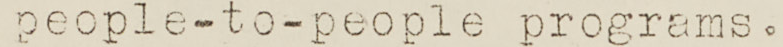people-to-people programs.
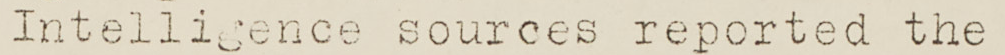Intelligence sources reported the
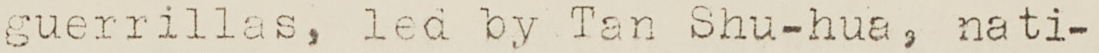guerrillas, led by Tan Shu-hua, nati-
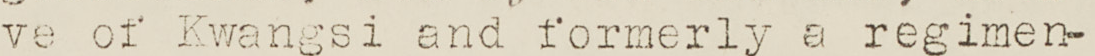ve of Kwangsi and formerly a regimen-
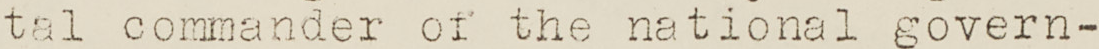tal commander of the national govern-
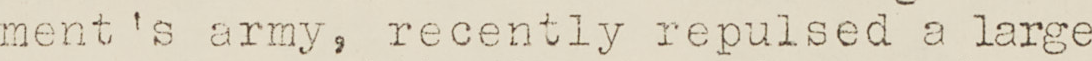ment's army, recently repulsed a large
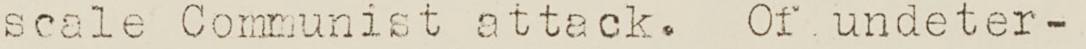scale Communist attack. Of undeter-
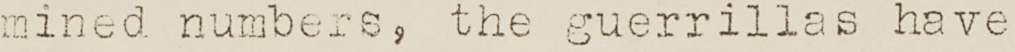mined numbers, the guerrels have
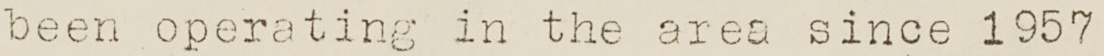been operating in the are since 1957
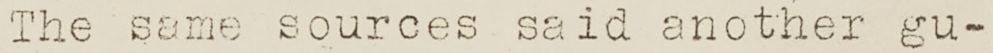The same sources said another gu-
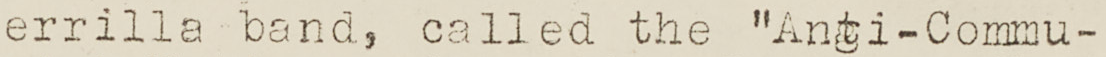errilla band, called the "Anti-Commu¬
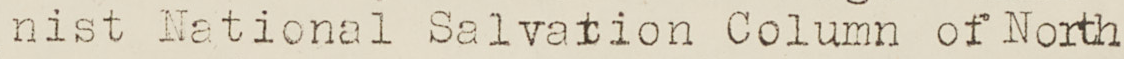nist National Salvation Column of North
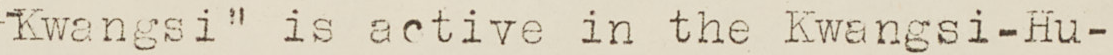Kwangsi" is active in the Kwangsi-Hu
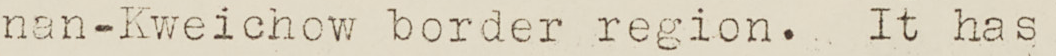nan-Kweichow border region. It has
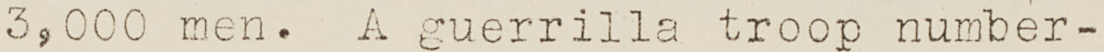3,000 men. A guerrilla troop number-
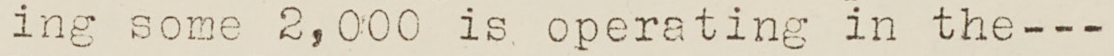ing some 2,000 is operating in the
